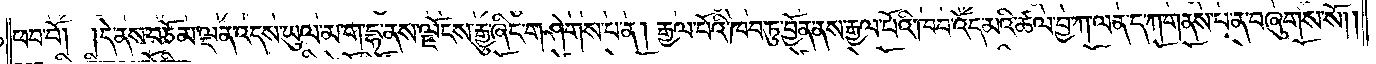ཕབ་བོ། །དེ་ནས་བཅོམ་ལྡན་འདས་ཡུལ་མ་ག་དྷ་ནས་ལྗོངས་རྒྱུ་ཞིང་གཤེགས་པ་ན། རྒྱལ་པོའི་ཁབ་ཏུ་བྱོན་ནས་རྒྱལ་པོའི་ཁབ་འོད་མའི་ཚལ་བྱ་ཀ་ལན་ད་ཀ་གནས་པ་ན་བཞུགས་སོ༎
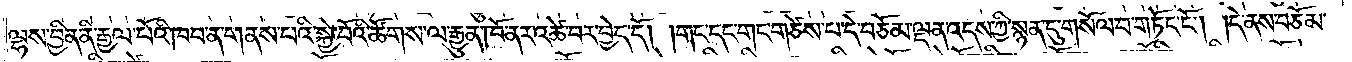ལྷས་བྱིན་ནི་རྒྱལ་པོའི་ཁབ་ན་གནས་པའི་སྐྱེ་བོའི་ཚོགས་ལ་རྒྱུན་ཁོ་ནར་འཚེ་བར་བྱེད་དོ། །གང་དང་གང་གཙེས་པ་དེ་བཅོམ་ལྡན་འདས་ཀྱི་སྙན་དུ་གསོལ་བ་གཏོང་ངོ༌། །དེ་ནས་བཅོམ་
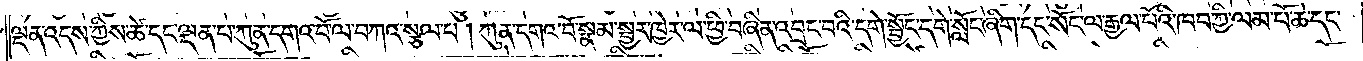ལྡན་འདས་ཀྱིས་ཚེ་དང་ལྡན་པ་ཀུན་དགའ་བོ་ལ་བཀའ་སྩལ་པ། ཀུན་དགའ་བོ་སྣམ་སྦྱར་ཁྱེར་ལ་ཕྱི་བཞིན་འབྲང་བའི་དགེ་སྦྱོང་དགེ་སློང་ཞིག་དང་སོང་ལ་རྒྱལ་པོའི་ཁབ་ཀྱི་ལམ་པོ་ཆེ་དང་
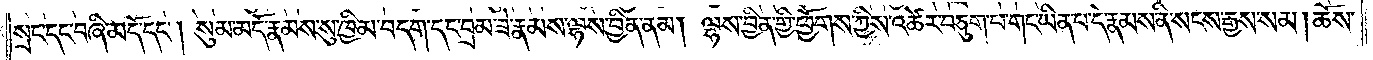སྲང་དང་བཞི་མདོ་དང༌། སུམ་མདོ་རྣམས་སུ་ཁྱིམ་བདག་དང་བྲམ་ཟེ་རྣམས་ལྷས་བྱིན་ནམ། ལྷས་བྱིན་གྱི་ཕྱོགས་ཀྱིས་འཚོར་བཅུག་པ་གང་ཡིན་པ་དེ་རྣམས་ནི་སངས་རྒྱས་སམ། ཆོས་
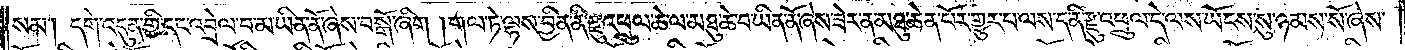སམ། དགེ་འདུན་གྱི་དང་འབྲེལ་བ་མ་ཡིན་ནོ་ཞེས་བསྒོ་ཞིག །གལ་ཏེ་ལྷས་བྱིན་ནི་རྫུ་འཕྲུལ་ཆེ་ལ་མཐུ་ཆེ་བ་ཡིན་ནོ་ཞེས་ཟེར་ན་མཐུ་ཆེན་པོར་གྱུར་པ་ལས་ད་ནི་རྫུ་འཕྲུལ་དེ་ལས་ཡོངས་སུ་ཉམས་སོ་ཞེས་
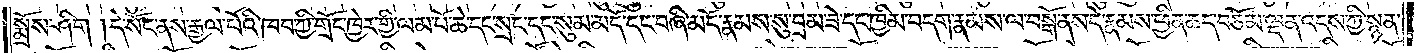སྨྲོས་ཤིག །དེ་སོང་ནས་རྒྱལ་པོའི་ཁབ་ཀྱི་གྲོང་ཁྱེར་གྱི་ལམ་པོ་ཆེ་དང་སྲང་དང་སུམ་མདོ་དང་བཞི་མདོ་རྣམས་སུ་བྲམ་ཟེ་དང་ཁྱིམ་བདག་རྣམས་ལ་བསྒོ་ནས་དེ་རྣམས་ཕྱིན་ཆད་བཅོམ་ལྡན་འདས་ཀྱི་སྙན་
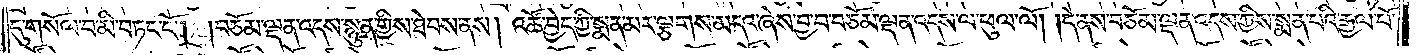དུ་གསོལ་བ་མི་བཏང་ངོ༌། །བཅོམ་ལྡན་འདས་སྙུན་གྱིས་ཐེབས་ནས། འཚོ་བྱེད་ཀྱི་སྨན་མར་ལྕགས་མདའ་ཞེས་བྱ་བ་བཅོམ་ལྡན་འདས་ལ་ཕུལ་ལོ། །དེ་ནས་བཅོམ་ལྡན་འདས་ཀྱིས་སྨན་པའི་རྒྱལ་པོ་
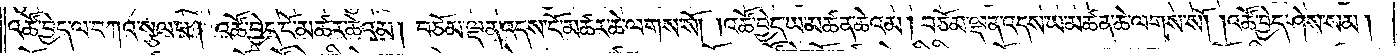འཚོ་བྱེད་ལ་བཀའ་སྩལ་པ། འཚོ་བྱེད་ངོ་མཚར་ཆེའམ། བཅོམ་ལྡན་འདས་ངོ་མཚར་ཆེ་ལགས་སོ། །འཚོ་བྱེད་ཡ་མཚན་ཆེའམ། བཅོམ་ལྡན་འདས་ཡ་མཚན་ཆེ་ལགས་སོ། །འཚོ་བྱེད་ཤེས་སམ།
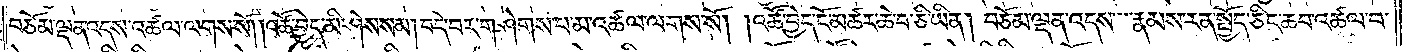བཅོམ་ལྡན་འདས་འཚལ་ལགས་སོ། །འཚོ་བྱེད་མི་ཤེས་སམ། བདེ་བར་གཤེགས་པ་མ་འཚལ་ལགས་སོ། །འཚོ་བྱེད་ངོ་མཚར་ཆེ་བ་ཅི་ཡིན། བཅོམ་ལྡན་འདས་རྣམས་རན་སྤྱོད་ཅིང་ཆབ་འཚལ་བ་
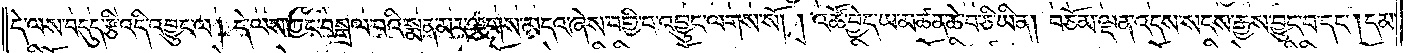དེ་ལས་བདུད་རྩི་འདི་འབྱུང་ལ། དེ་ལས་ཀྱང་བསྒྲལ་བའི་སྨན་མར་ལྕགས་མདའ་ཞེས་བགྱི་བ་འབྱུང་ལགས་སོ། །འཚོ་བྱེད་ཡ་མཚན་ཆེ་བ་ཅི་ཡིན། བཅོམ་ལྡན་འདས་སངས་རྒྱས་བྱུང་བ་དང༌། དམ་
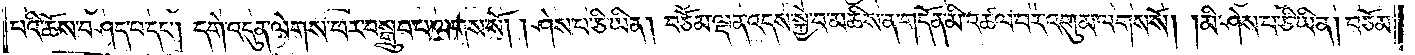བའི་ཆོས་བཤད་པ་དང༌། དགེ་འདུན་ལེགས་པར་བསྒྲུབ་པ་ལགས་སོ། །ཤེས་པ་ཅི་ཡིན། བཅོམ་ལྡན་འདས་སྐྱེ་བ་མཆིས་ན་གདོན་མི་འཚལ་བར་འགུམ་ལགས་སོ། །མི་ཤེས་པ་ཅི་ཡིན། བཅོམ་
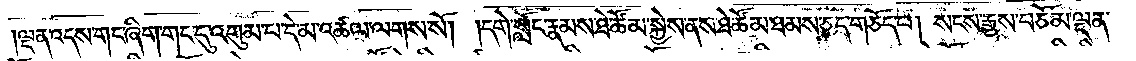ལྡན་འདས་གང་ཞིག་གང་དུ་འགུམ་པ་དེ་མ་འཚལ་ལགས་སོ། །དགེ་སློང་རྣམས་ཐེ་ཚོམ་སྐྱེས་ནས་ཐེ་ཚོམ་ཐམས་ཅད་གཅོད་པ། སངས་རྒྱས་བཅོམ་ལྡན་
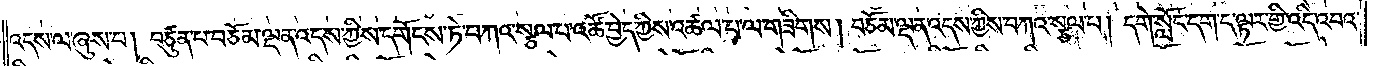འདས་ལ་ཞུས་པ། བཙུན་པ་བཅོམ་ལྡན་འདས་ཀྱིས་དགོངས་ཏེ་བཀའ་སྩལ་པ་འཚོ་བྱེད་ཀྱིས་འཚལ་པ་ལ་གཟིགས། བཅོམ་ལྡན་འདས་ཀྱིས་བཀའ་སྩལ་པ། དགེ་སློང་དག་ད་ལྟར་གྱི་འདི་འབའ་
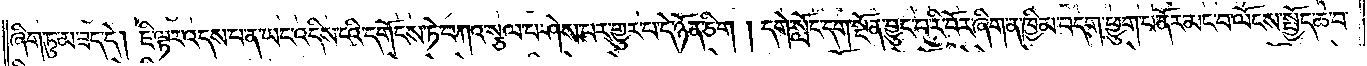ཞིག་ཏུ་མ་ཟད་དེ། ཇི་ལྟར་འདས་པ་ན་ཡང་འདིས་ངའི་དགོངས་ཏེ་བཀའ་སྩལ་པ་ཤེས་པར་གྱུར་པ་དེ་ཉོན་ཅིག །དགེ་སློང་དག་སྔོན་བྱུང་བ་རི་བོར་ཞིག་ན་ཁྱིམ་བདག་ཕྱུག་པ་ནོར་མང་བ་ལོངས་སྤྱོད་ཆེ་བ་
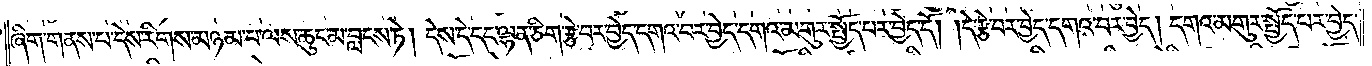ཞིག་གནས་པ་དེས་རིགས་མཉམ་པ་ལས་ཆུང་མ་བླངས་ཏེ། དེས་དེ་དང་ལྷན་ཅིག་རྩེ་བར་བྱེད་དགའ་བར་བྱེད་དགའ་མགུར་སྤྱོད་པར་བྱེད་དོ། །དེ་རྩེ་བར་བྱེད་དགའ་བར་བྱེད། དགའ་མགུར་སྤྱོད་པར་བྱེད་
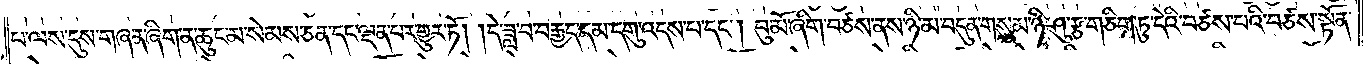པ་ལས་དུས་གཞན་ཞིག་ན་ཆུང་མ་སེམས་ཅན་དང་ལྡན་པར་གྱུར་ཏོ། །དེ་ཟླ་བ་བརྒྱད་དམ་དགུ་འདས་པ་དང༌། བུ་མོ་ཞིག་བཙས་ནས་ཉི་མ་བདུན་གསུམ་ཉི་ཤུ་རྩ་གཅིག་ཏུ་དེའི་བཙས་པའི་བཙས་སྟོན་
